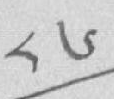༨༦
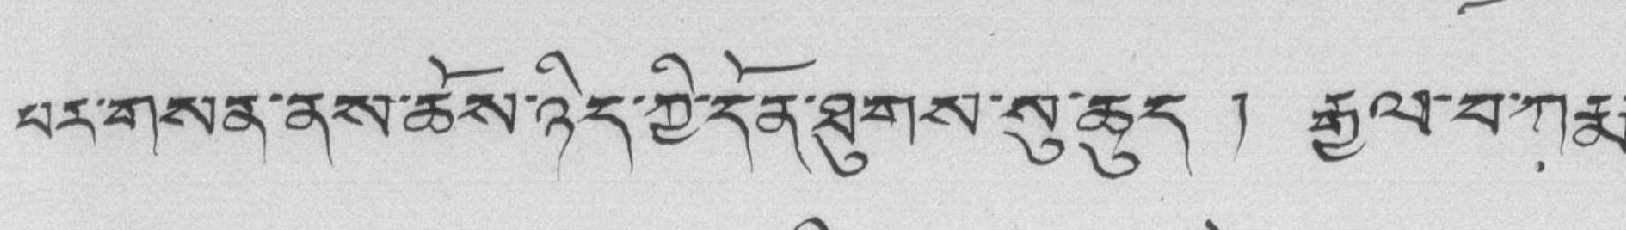པར་གསན་ནས་ཆོས་ཉིད་ཀྱི་དོན་ཐུགས་སུ་ཆུད ། རྒྱལ་བ་ཀརྨ་
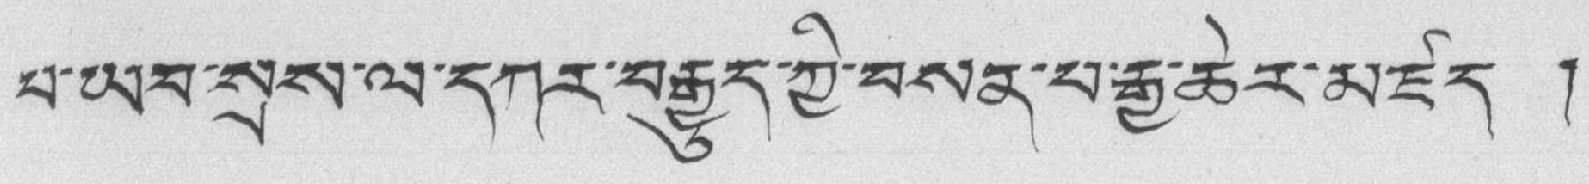པ་ཡབ་སྲས་ལ་དཀར་བརྒྱུད་ཀྱི་བསན་པ་རྒྱ་ཆེར་མཛད །
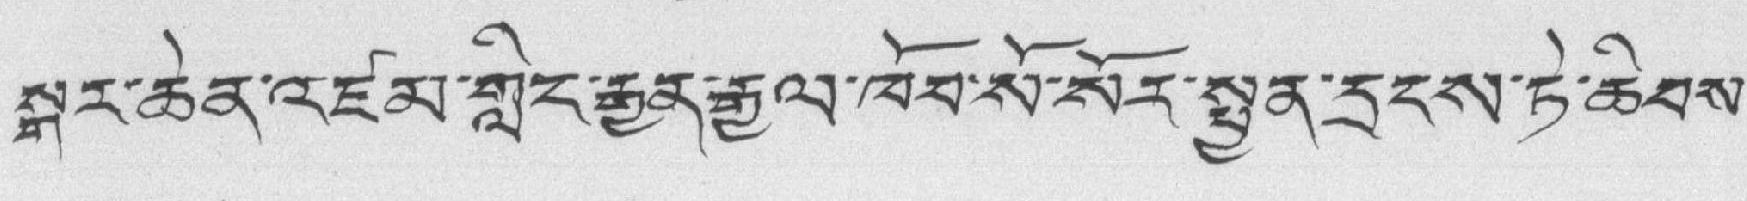སྒར་ཆེན་འཛམ་གླིང་རྒྱན་རྒྱལ་ཁོབ་སོ་སོར་སྤྱན་དྲངས་ཏེ་ཆིབས་
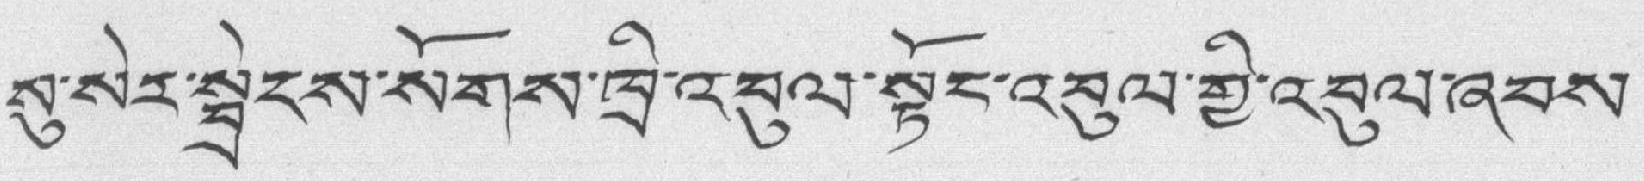སུ་སེར་སྦྲེངས་སོགས་ཁྲི་འབུལ་སྟོང་འབུལ་གྱི་འབུལ་ཞབས་
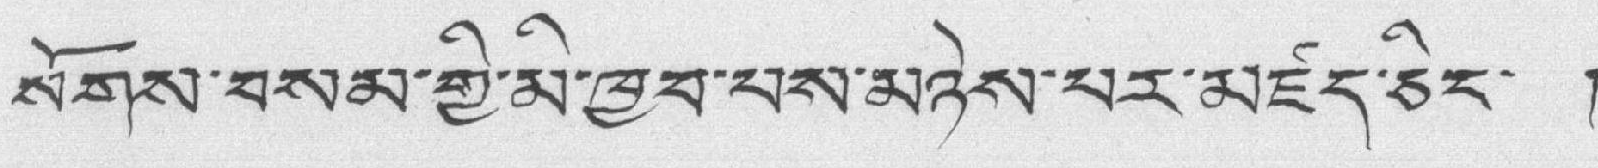སོགས་བསམ་གྱི་མི་ཁྱབ་པས་མཉེས་པར་མཛད་ཅིང་ །
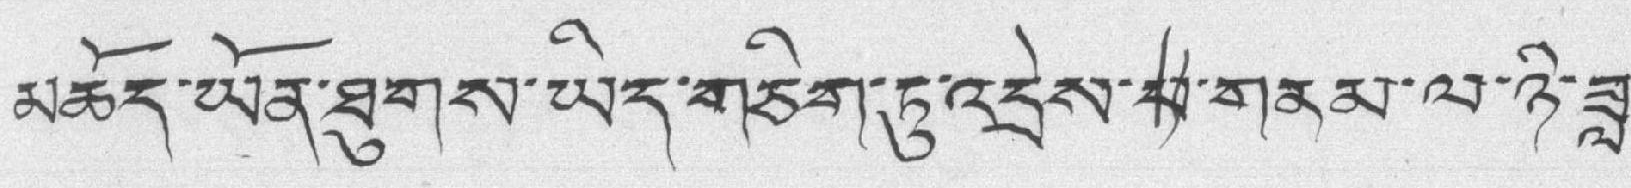མཆོད་ཡོན་ཐུགས་ཡིད་གཅིག་ཏུ་འདྲེས་པ་གནམ་ལ་ཉི་ཟླ་
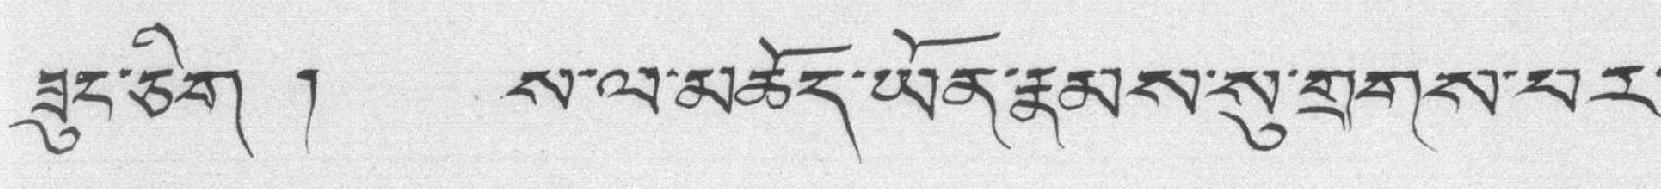ཟུང་ཅིག ། ས་ལ་མཆོད་ཡོན་རྣམས་སུ་གྲགས་བར་
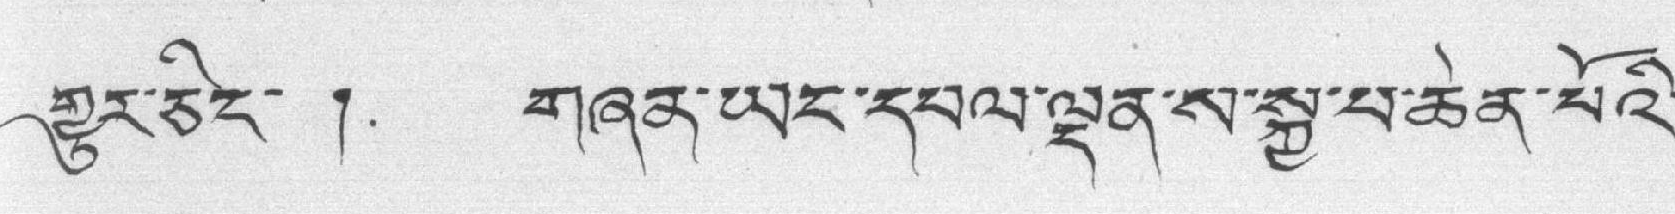གྱུར་ཅིང་ ། གཞན་ཡང་དཔལ་ལྡན་ས་སྐྱ་པ་ཆེན་པོའི་
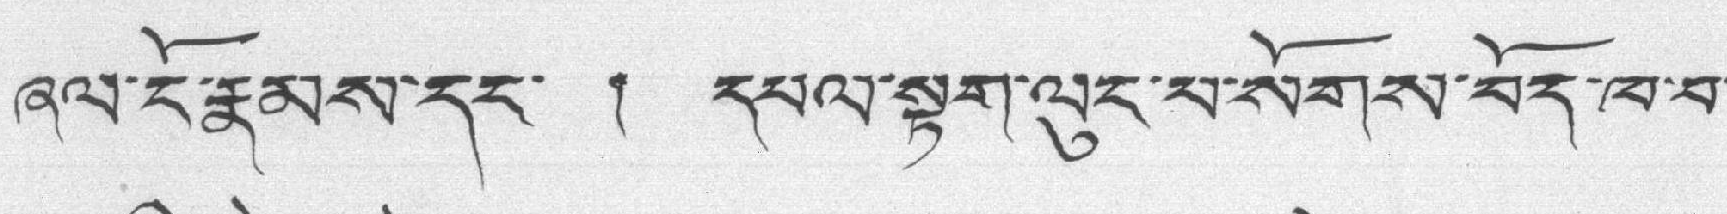ཞལ་ངོ་རྣམས་དང་ ། དཔལ་སྟག་ལུང་པ་སོགས་བོད་ཁ་བ་
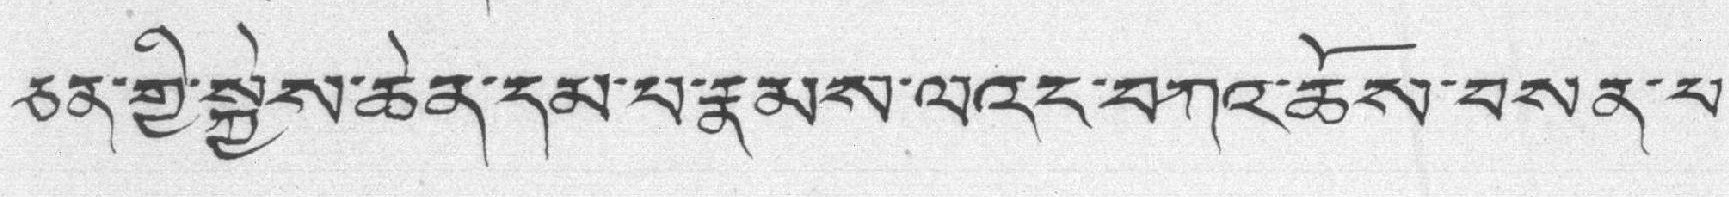ཅན་གྱི་སྐྱེས་ཆེན་དམ་པ་རྣམས་ལའང་བཀའ་ཆོས་བསན་པ་
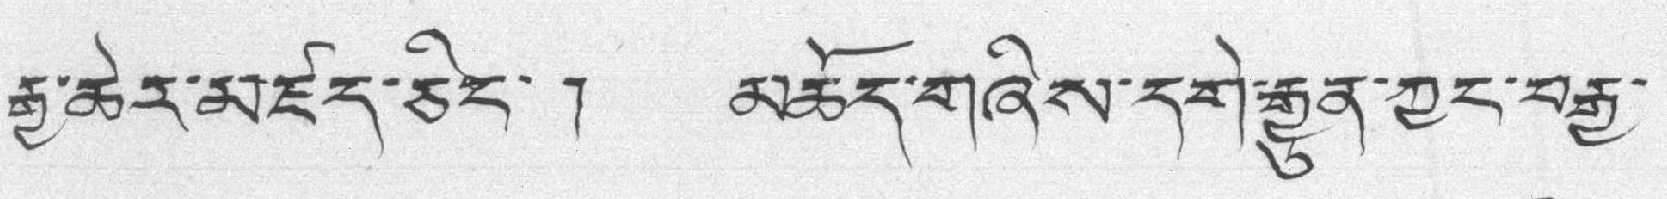རྒྱ་ཆེར་མཛད་ཅིང་ ། མཆོད་གཞིས་དགེ་རྒྱུན་ཀྱང་བརྒྱ་
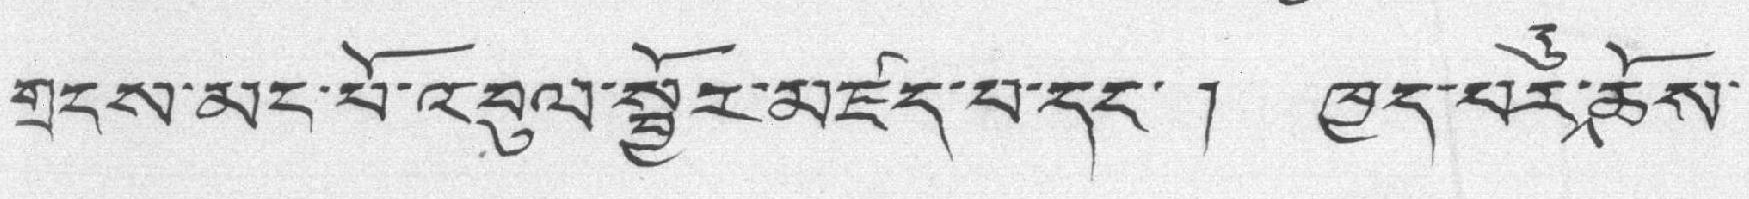གྲངས་མང་པོ་འབུལ་སྦྱོར་མཛད་པ་དང་ ། ཁྱད་པར་དུ་ཆོས་
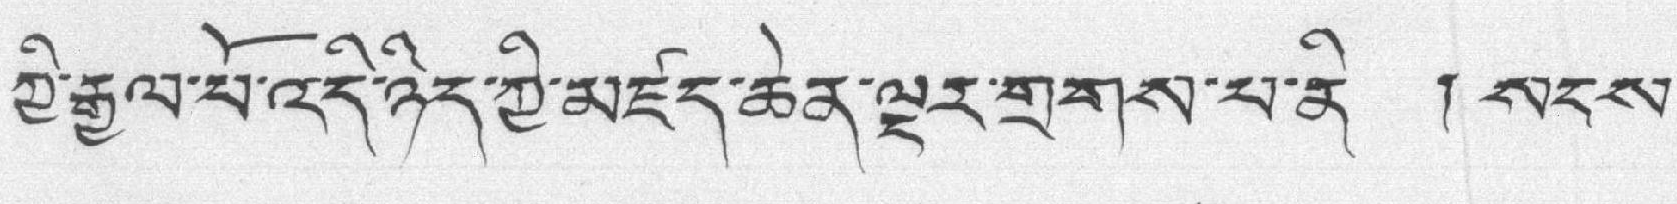ཀྱི་རྒྱལ་པོ་འདི་ཉིད་གྱི་མཛད་ཆེན་ལྔར་གྲགས་པ་ནི ། སངས་
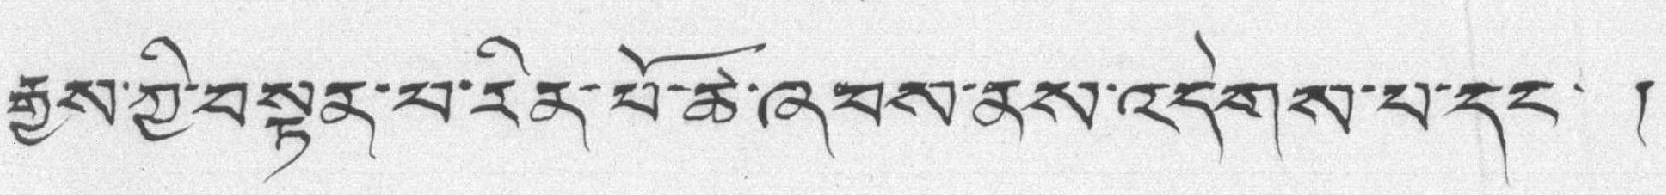རྒྱུས་ཀྱི་བསྟན་པ་རིན་པོ་ཆེ་ཞབས་ནས་འདེགས་པ་དང་ །
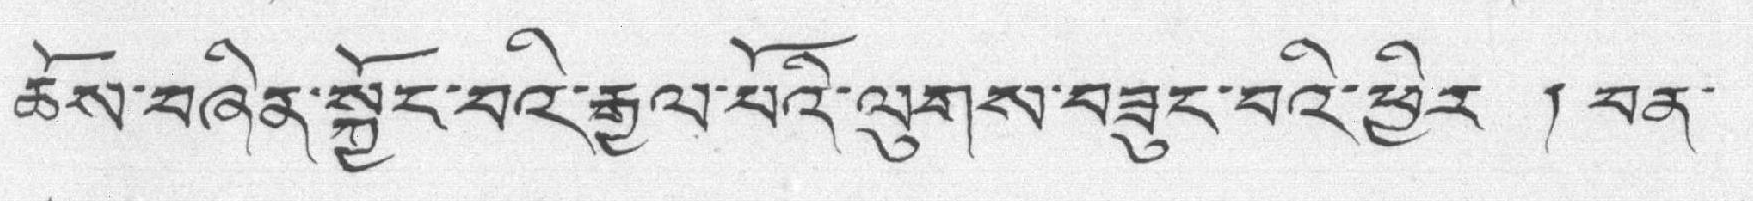ཆོས་བཞིན་སྐྱོང་བའི་རྒྱལ་པོའི་ལུགས་བཟུང་བའི་ཕྱིར ། བན་
